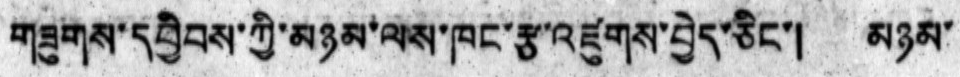གཟུགས་དབྱིབས་ཀྱི་མཉམ་ལས་ཁང་རྩ་འཛུགས་བྱེད་ཅིང་། མཉམ་
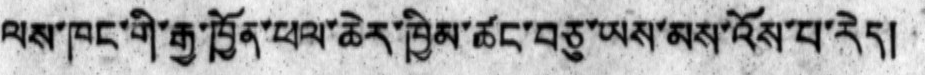ལས་ཁང་གི་རྒྱ་ཁྱོན་ཕལ་ཆེར་ཁྱིམ་ཚང་བཅུ་ཡས་མས་འོས་པ་རེད།
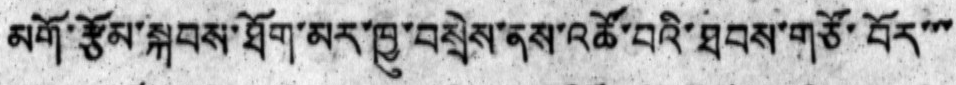མགོ་རྩོམ་སྐབས་ཐོག་མར་ཁྱུ་བསྲེས་ནས་འཚོ་བའི་ཐབས་གཙོ་བོར་་་
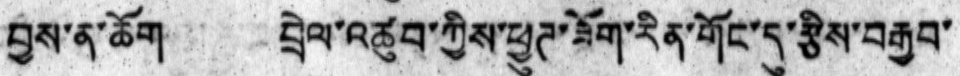བྱས་ན་ཆོག བྲེལ་འཚུབ་ཀྱིས་ཕྱུཊ་ཟོག་རིན་གོང་དུ་རྩིས་བརྒྱབ་
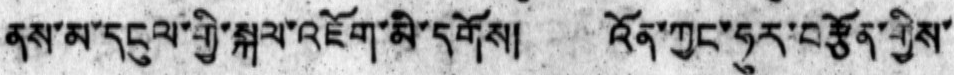ནས་མ་དངུལ་གྱི་སྐལ་འཇོག་མི་དགོས། འོན་ཀྱང་ཧུར་བརྩོན་གྱིས་
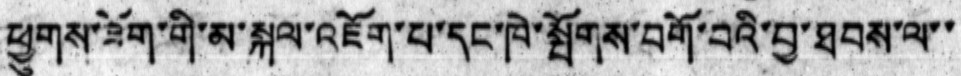ཕྱུགས་ཟིག་གི་མ་སྐལ་འཇོག་པ་དང་ཁེ་སྤོགས་བགོ་བའི་བྱ་ཐབས་ལ་་
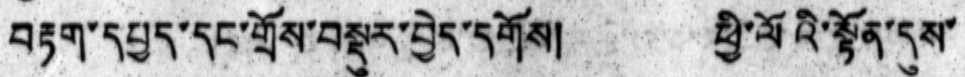བརྟག་དཔྱད་དང་གྲོས་བསྡུར་བྱེད་དགོས། ཕྱི་ལོའི་སྟོན་དུས་
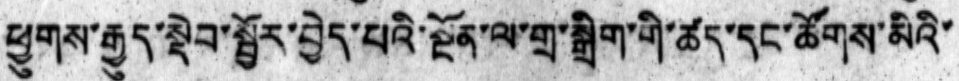ཕྱུགས་རྒྱུད་སྡེབ་སྦྱོར་བྱེད་པའི་སྔོན་ལ་གྲ་སྒྲིག་གི་ཚད་དང་ཚོགས་མིའི་
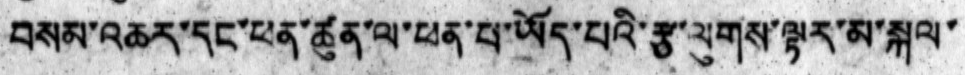བསམ་འཆར་དང་ཕན་ཚུན་ལ་ཕན་པ་ཡོད་པའི་རྩ་ལུགས་ལྟར་མ་སྐུལ་
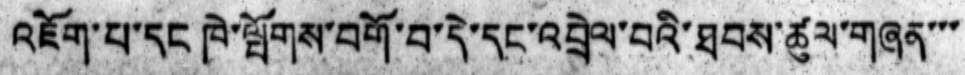འཇོག་པ་དང ཁེ་ཕྤོགས་བགོ་བ་དེ་དང་འབྲེལ་བའི་ཐབས་ཚུལ་གཞན་་་
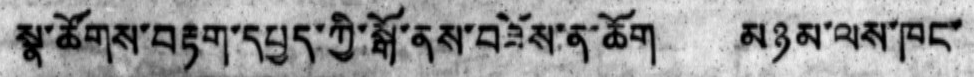སྣ་ཚོགས་བརྟག་དཔྱད་ཀྱི་སྒོ་ནས་བཟོས་ན་ཆོག མཉམ་ལས་ཁང་
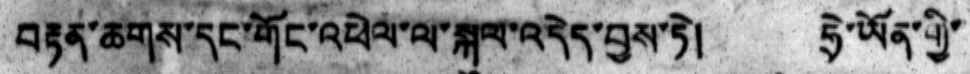བརྟན་ཆགས་དང་གོང་འཕེལ་ལ་སྐུབ་འདེད་བྱས་ཏེ། ཧྲེ་ཡོན་གྱི་
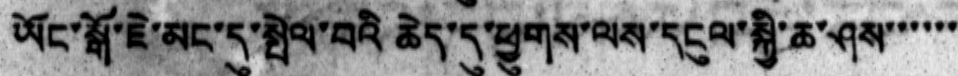ཡོང་སྒོ་ཇེ་མང་དུ་སྤེལ་བའི ཆེད་དུ་ཕྱུགས་ལས་དངུལ་སྐྱི་ཆ་ཤས་་་་་་
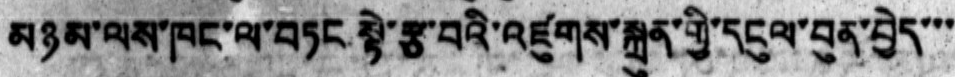མཉམ་ལས་ཁང་ལ་བཏང སྟེ་རྩ་བའི་འཛུགས་སྐྲུན་གྱི་དངུལ་བུན་བྱེད་་་
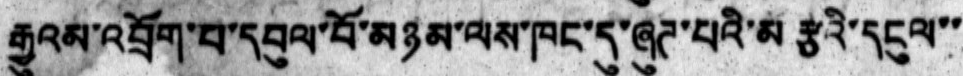རྒྱུའམ་འབྲོག་པ་དབུལ་བོ་མཉམ་ལས་ཁང་དུ་ཞུཊ་པའི་མརྩའི་དངུལ་་
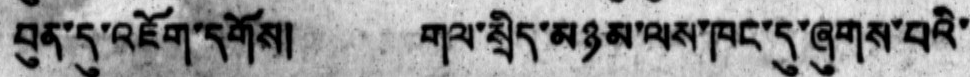བུན་དུ་འཇོག་དགོས། གལ་སྲིད་མཉམ་ལས་ཁང་དུ་ཞུགས་པའི་
